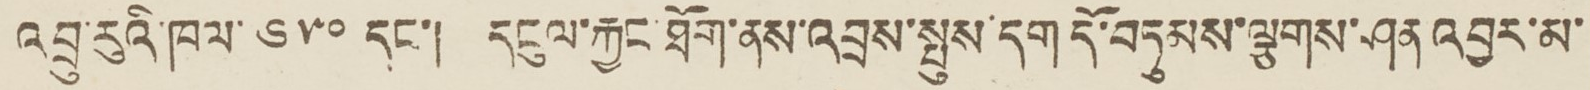འབྲུ་རུའི་ཁལ་ ༦༥༠ དང་། དངུལ་རྐྱང་ཐོག་ནས་འབྲས་སྤུས་དག་དོ་བཏུམས་ལྕགས་ཤན འབྱར་མ་
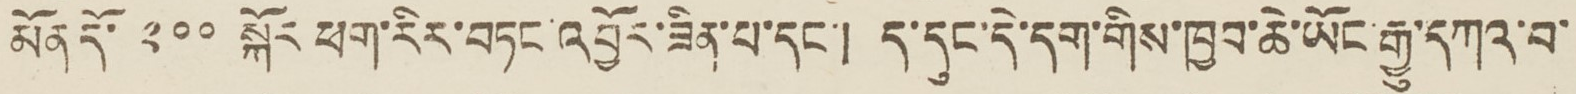མོན་དོ་ ༢༠༠ སྐོར ཕག་རིར་བཏང་འབྱོར་ཟིན་པ་དང་། ད་དུང་དེ་དག་གིས་ཁྱབ་ཆེ་ཡོང་རྒྱུ་དཀའ་བ་
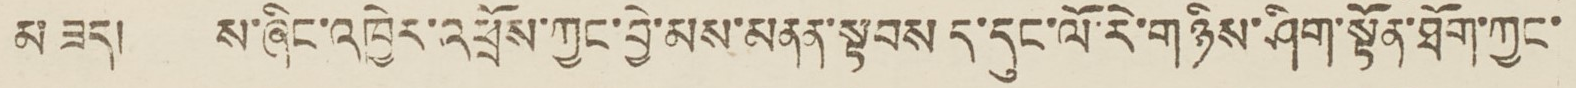མ ཟད། ས་ཞིང་འཁྱེར་འཕྲོས་ཀྱང་བྱེ་མས་མནན་སྟབས ད་དུང་ལོ་རེ་གཉིས་ཤིག་སྟོན་ཐོག་ཀྱང་
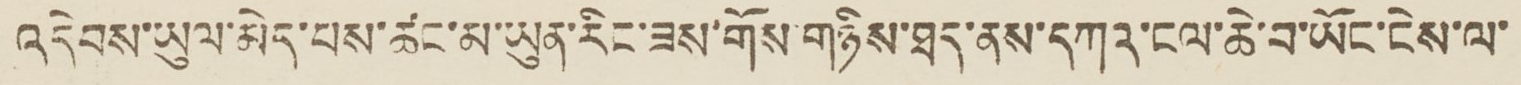འདེབས་ཡུལ་མེད་པས་ཚང་མ་ཡུན་རིང་ཟས་གོས་གཉིས་ཐད་ནས་དཀའ་ངལ་ཆེ་བ་ཡོང་ངེས་ལ་
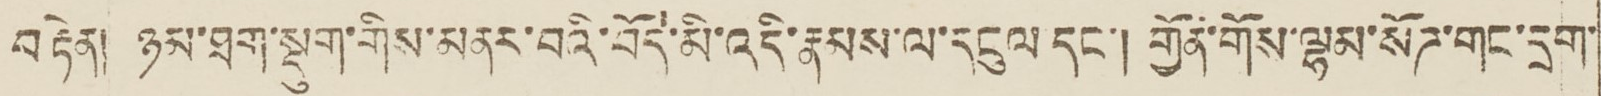བརྟེན། ཉམ་ཐག་སྡུག་གིས་མནར་བའི་བོད་མི་འདི་རྣམས་ལ་དངུལ དང་། གྱོན་གོས་ལྷམ་སོཊ་གང་དྲག་
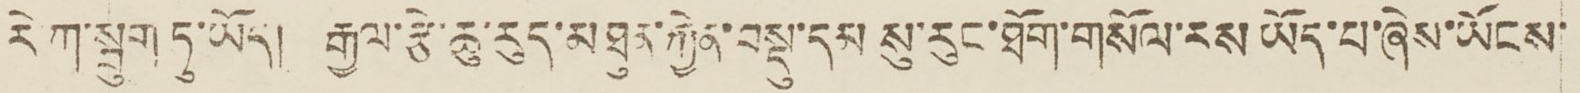རེ ཀ་སྦུག ཏུ་ཡོད། རྒྱལ་རྩེ་ཆུ་རུད་མཐུན་རྐྱེན་བསྡུ་དམ སུ་རུང་ཐོག་གསོལ་རས ཡོད་པ་ཞེས་ཡོངས
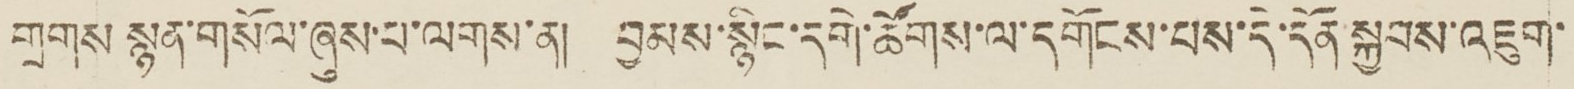གྲགས སྙན་གསོལ་ཞུས་པ་ལགས་ན། བྱམས་སྙིང་དགེ་ཚོགས་ལ་དགོངས་པས་དེ་དོན་སྐྱབས་འཇུག་
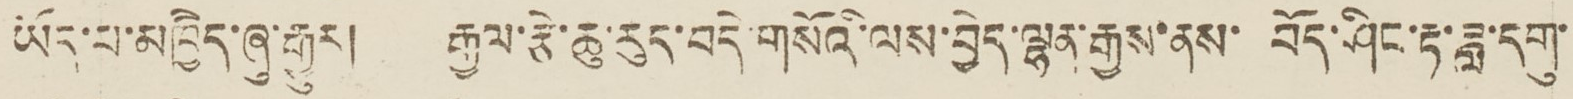ཡོད་པ་མཁྱཻད་ཞུ་རྒྱུར། རྒྱལ་རྩེ་ཆུ་རུད་བདེ་གསོའི་ལས་བྱེད་ལྷན་རྒྱས་ནས་ བོད་ཤིང་རྟ་ཟླ་དགུ་
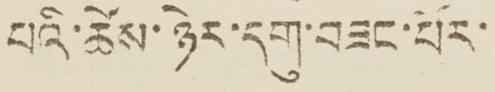པའི་ཚེས་ཉེར་དགུ་བཟང་པོར་
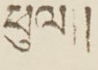ཕུལ།།
